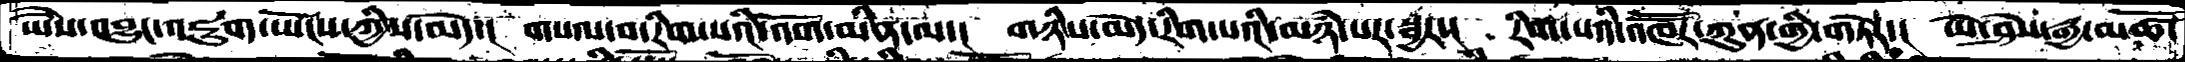ཡཻས་འབྱུང་འཇུག་ཡོངས་ཀྱིས་མེད་།  གསལ་བ་རིག་པའི་འོག་མིན་ལ་།  གཉིས་མེད་རིག་པའི་མཉཾ་པར་སྦྱར་།  རིག་པའི་འཁཽོར་ཀུན་གྱི་གཏེར་།  ཡེ་ཤེས་རྒྱ་མཚོ་
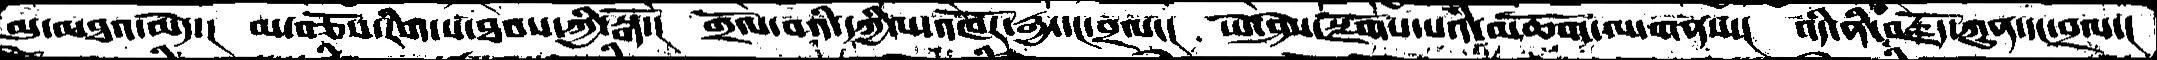མུ་མཐའ་མེད་།  མ་བཅོས་རིག་པ་ཐབས་ཀྱི་སྒོ་།  གྲོལ་བའི་དཀྱིལ་འཁོར་རྒྱ་དང་བྲལ་།  ཡེ་ཤེས་སྫོགས་པའི་མཆོག་ལ་གནས་།  འདི་ནི་བརྫོད་ཀུན་དང་བྲལ་།
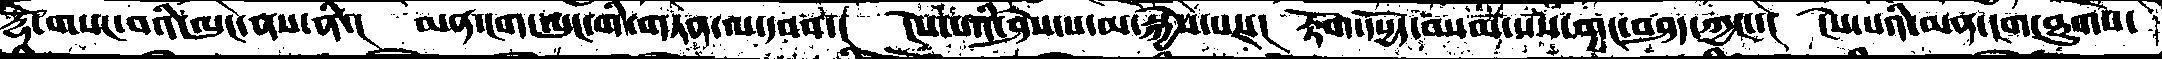རྡོེ་གསང་བའི་ལུང་ནས་ནི་།  མན་ངག་ལུང་གི་གཏན་ལ་དབབ་།  ངེས་པའི་ཤེས་པ་མ་སྐྱེས་པར་།  རྟོག་དཔྱོད་བསམ་པས་གང་བཤད་ཀྱང་་།  ངེས་པའི་མན་ངག་ཐུགས་
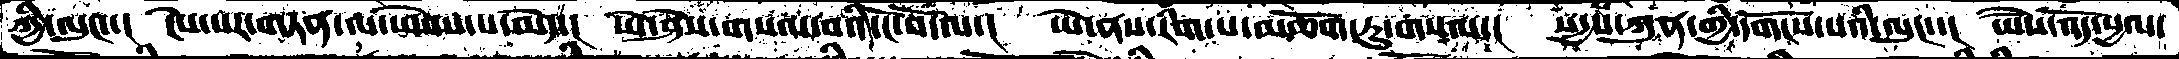ཀྱི་ལུང་།  ངེས་པར་གཏན་ལ་ཕེབས་པ་མེད་།  ཡེ་ཤེས་གསལ་བའི་ངོ་བོ་ལ་།  ཡེ་ནས་རིག་པ་མཆོག་ཏུ་གསལ་།  སདྱས་ཀུན་གྱི་དགོངས་པའི་ལུང་་།  ཡཻས་འོད་སྱལ་
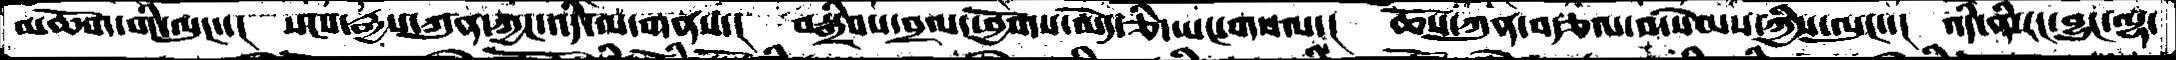མཆོག་གི་ལུང་་།  སངས་རྒྱས་ཀུན་ཀྱང་འདི་ལ་གནས་།  བསྒྲིབས་བྲལ་ཕྱོགས་མེད་ཅི་ཡང་གསལ་།  ཆོས་ཀུན་རྩལ་བ་སེམས་ཀྱིས་ལུང་་།  འདི་ནི་རང་བྱུང་ལྷ་
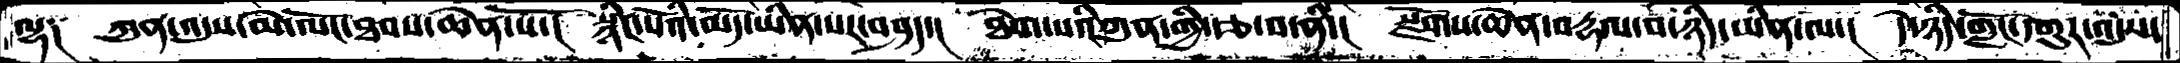ལྷ༑  ཀུན་འདུས་མེ་ལོང་ཐབས་ཆེན་པོ་།  སྙིང་པོའི་མདོ་ཡིན་པར་བཤད་།  ཐེག་པའི་ཀུན་གྱི་རྩ་བ་ནི་།  སྫོགས་ཆེན་བརྡལ་བ་ཉིད་ཡིན་ལ་།  དེ་ཉིད་གློང་དགུར་འདུས་
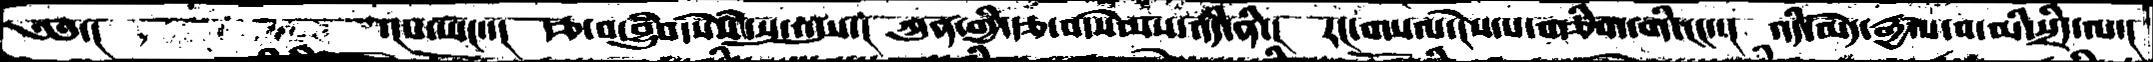༄༅་།      ་།པ་ཡང་་།   རྩ་བ་བྱུཾབ་སེཾས་སུ་འདུས་།  ཀུན་གྱི་རྩ་བ་སེམས་འདི་ནི་།  རང་གསལ་ངེས་པ་གཅིག་གི་ངང་་།  འདི་མེད་རྒྱལ་བ་མི་སྲིད་ལ་།
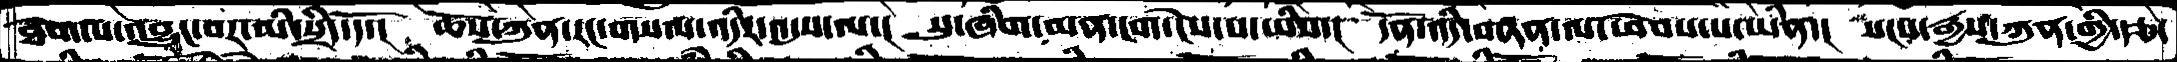ཐེག་པ་འབྱུང་བར་མི་སྲིད་དོ་།   ཆོས་ཀུན་རང་གསལ་འདིར་འདུས་ལ་།  སུ་ཞིག་མན་ངག་ངེས་པ་ཡིས་།  དོན་འདི་གཏན་ལ་ཕེབས་པ་ཡིན་།  སངས་རྒྱས་ཀུན་གྱི་རྩ་
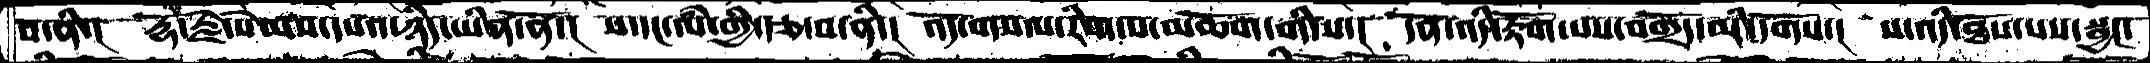བ་ནི་།   རྡོ་རྗེ་སེམས་དཔའ་ཉིད་ཡིན་ནོ་།  ས་དང་ལཾ་གྱི་རྩ་བ་ནི་།  འོད་གསལ་རིག་པ་མཆོག་གི་ས་།  དོན་འདི་རྟོག་པས་བགྲོད་མི་དགོས་།  ས་འདི་ཐོས་པས་སྦྱང་
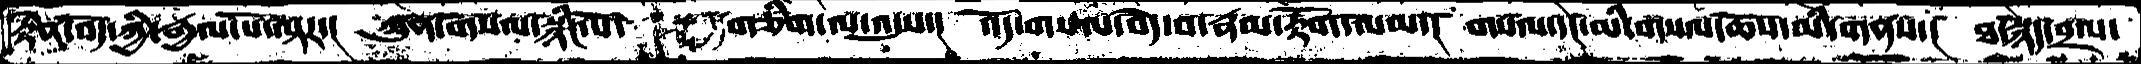རྟེན་བོད་ཀྱི་རྒྱལ་པོ་ལྟར་།  ཀུན་གསལ་སྙིང་པོ་   གཅིག་ལ་འདུས་།   འོད་གསལ་བདེ་བ་རྣམ་རྟོག་ལམ་།  གསལ་དང་མི་གསལ་ཆོས་མི་གནས་།  ཐ་སྙད་བྲལ་
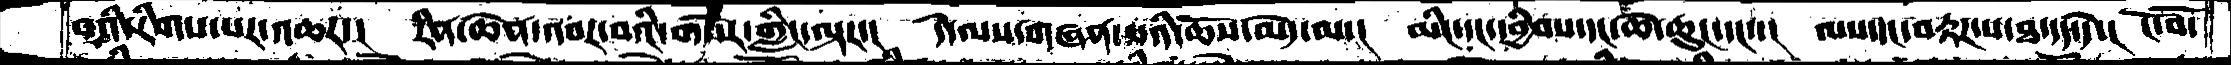བའི་རིགས་པར་འཆར་།  རིན་ཆེན་འབར་བའི་གསེར་གླིང་ལྟར་།  དེ་ལས་གཞན་པའི་ཆོས་མེད་ལ་།  མིང་དང་དབྱིབས་དང་ཆེ་ཆུང་དང་་།  ལས་དང་བརྟཌ་པ་ཐ་དད་དེ་།  ངོ་བོ་
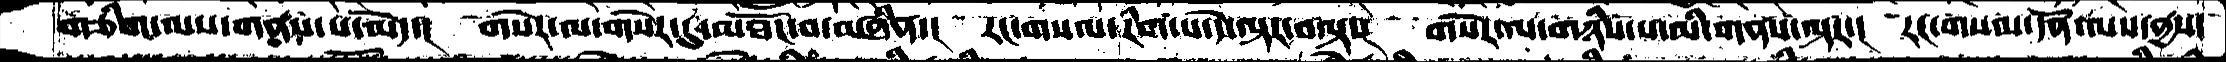གཅིག་ལས་གནས་པ་མེད་།  གསེར་ལ་གསེར་དུ་མཐོང་བ་བཞིན་།  རང་གསལ་རིག་པ་དེ་ལྟར་བལྟ་།  གསེར་ལ་གཉིས་པ་མི་གནས་ལྟར་།  རང་གསལ་དོན་ལས་ནྱས་
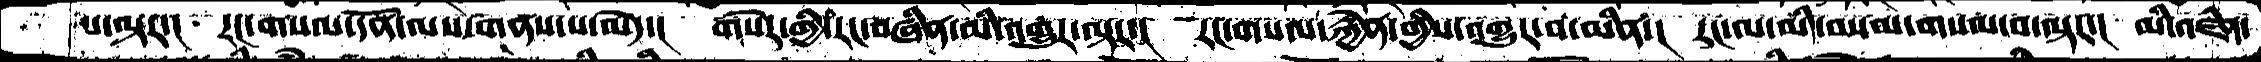པ་ལྟར་།  རང་གསལ་དོན་ལས་གནས་པ་མེད་།  གསེར་གྱི་རང་བཞིན་མི་འགྱུར་ལྟར་།  རང་གསལ་རྐྱེན་གྱིས་འགྱུར་བ་མིན་།  རང་ལ་མི་བསལ་གསལ་བ་ལྟར་།  མི་འཛིན་
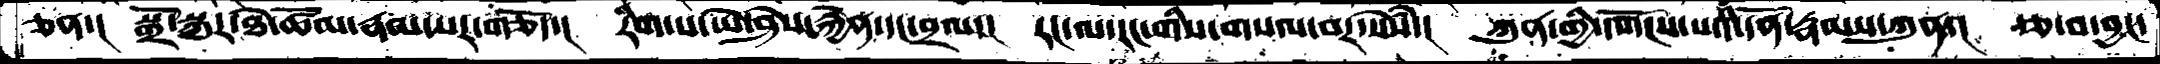ཅན་།  སྒྲོ་སྐུར་ཐེ་ཚོམ་རྣམ་པར་གཅོད་།  རིག་པ་ཡེ་ཤེས་རྐྱེན་དང་བྲལ་།  རང་ལ་རང་གིས་གསལ་བར་སེཾས་།  ཀུན་གྱི་དགོངས་པའི་དོན་རྣམས་ཀུན་།  རྩ་བ་བྱང་
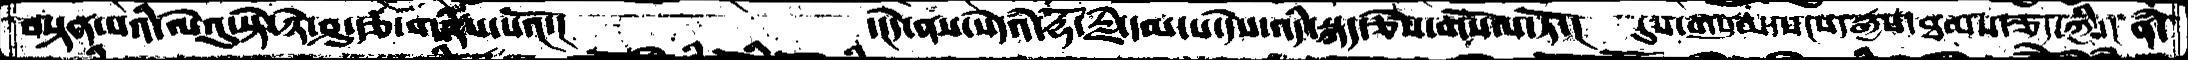བསྟན་པའི་ལེའུ་སྟེ་ཉེ་ཤུ་རྩ་གཉིས་པའོ་།       ་།དེ་ནས་སེདཾའ་རྡོ་རྗེ་དམ་པ་དེས་འདི་སྐད་ཅེས་གསོལ་ཏོ་།  དུས་གསུམ་སངས་རྒྱས་ཐམས་ཅད་ཀྱི་། ནཾ་
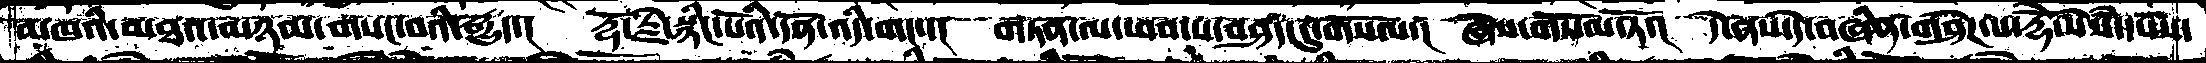མཁའི་མཐའ་མཉམ་གསང་བའི་རྒྱུད་།  རྡོ་རྗེ་སྙིང་པོའི་དོན་འདི་གང་་།  གཏན་ལ་ཕབ་པ་བཤད་དུ་གསོལ་།  ཞེས་གསོལ་ཏོ་།  དེ་ནས་དེ་བཞིན་གཤེཌ་པ་རྡོེ་སེཾས་དསས་
